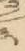༣
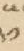༢༡
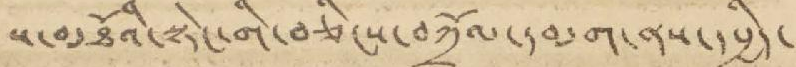ས་མཐོའི་སྟེང་གི་བཅིངས་བཀྲོལ་དམག་ནས་དཔྱིད་
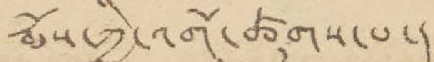རྨོས་ཀྱི་འགོ་ཚུགས་པ་།
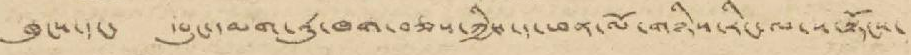ཁུངས་དང་ དཔུང་དམག་རུ་ཁག་བཅས་ཀྱིས་ད་ཕན་ལོ་གཉིས་རིང་ལ་ས་སྟོངས་
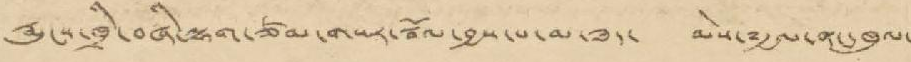རྨུངས་ཁྲི་བཞི་ལྷག་ཙམ་གསར་སྦོལ་བྱས་པ་མ་ཟད་ མེས་༸རྒྱལ་ནང་ཁུལ་
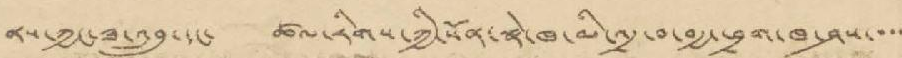ནས་ཀྱང་ཟ་འབྲུ་དང་ ཚལ་རིགས་ཀྱི་སོན་སྣེ་ཁ་མི་འདྲ་བ་བརྒྱ་ཕྲག་ཁ་ཤས་་་་
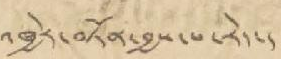འཁྱེར་བཏོན་བྱས་པ་རེད་།
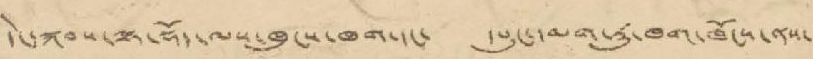དེང་སྐབས་ལྟ་སྡོད་ལས་ཁུངས་ཁག་དང་ དཔུང་དམག་རུ་ཁག་ཁོངས་ནས་
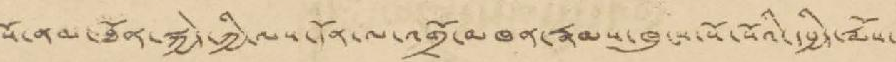སོ་ནམ་ཐོན་སྐྱེད་ཀྱི་ལས་དོན་ལ་འགྲོ་མཁན་རྣམས་ཁུངས་སོ་སོའི་དཔྱིད་རྨོས་
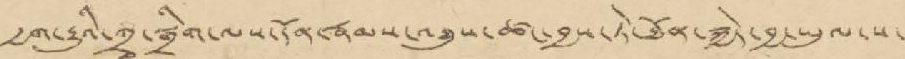རྒྱག་རྒྱུའི་གྲྭ་སྒྲིག་ལས་དོན་རྣམས་འཐུས་ཚང་བྱས་ཏེ་ཐོན་སྐྱེད་བྱ་ཡུལ་ས་
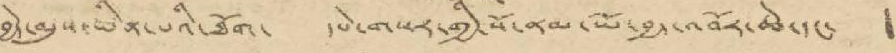བྱེད་ལུས་ཡིན་པའི་ཐོག་ དཔེ་གསར་གྱི་སོ་ནམ་ཡོ་བྱད་འབོར་ཆེ་དང་ །
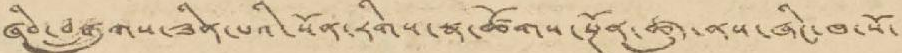ཞིབ་བསྒྲུབས་ཟིན་པའི་སོན་རིགས་སྣ་ཚོགས་སྔོན་ཚུད་ནས་ཞིང་ཁ་སོ་
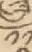༡༡
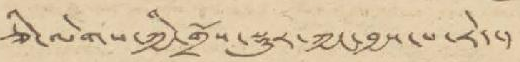ཅི་ལེགས་ཀྱི་གྲོས་སྡུར་ཀྱང་བྱས་པ་རེད་།
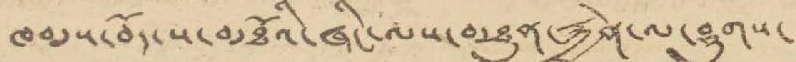ཁམས་བོད་ས་མཐོའི་ཞིང་ལས་མཐུན་རྐྱེན་ལ་ཤུགས་
